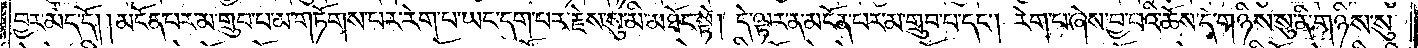བྱར་མེད་དོ། །མངོན་པར་མ་གྲུབ་པ་མ་གཏོགས་པར་རེག་པ་ཡང་དག་པར་རྗེས་སུ་མི་མཐོང་སྟེ། དེ་ལྟར་ན་མངོན་པར་མ་གྲུབ་པ་དང༌། རེག་པ་ཞེས་བྱ་བའི་ཆོས་དེ་གཉིས་སུ་ནི་གཉིས་སུ་
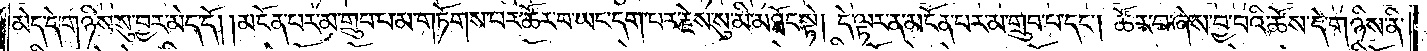མེད་དེ་གཉིས་སུ་བྱར་མེད་དོ། །མངོན་པར་མ་གྲུབ་པ་མ་གཏོགས་པར་ཚོར་བ་ཡང་དག་པར་རྗེས་སུ་མི་མཐོང་སྟེ། དེ་ལྟར་ན་མངོན་པར་མ་གྲུབ་པ་དང༌། ཚོར་བ་ཞེས་བྱ་བའི་ཆོས་དེ་གཉིས་ནི་
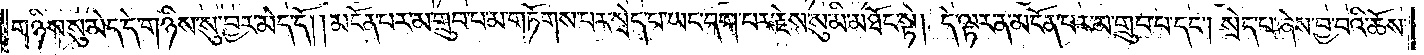གཉིས་སུ་མེད་དེ་གཉིས་སུ་བྱར་མེད་དོ། །མངོན་པར་མ་གྲུབ་པ་མ་གཏོགས་པར་སྲེད་པ་ཡང་དག་པར་རྗེས་སུ་མི་མཐོང་སྟེ། དེ་ལྟར་ན་མངོན་པར་མ་གྲུབ་པ་དང༌། སྲེད་པ་ཞེས་བྱ་བའི་ཆོས་
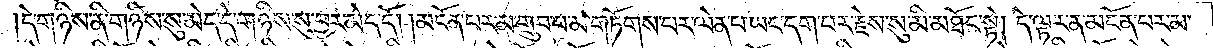དེ་གཉིས་ནི་གཉིས་སུ་མེད་དེ་གཉིས་སུ་བྱར་མེད་དོ། །མངོན་པར་མ་གྲུབ་པ་མ་གཏོགས་པར་ལེན་པ་ཡང་དག་པར་རྗེས་སུ་མི་མཐོང་སྟེ། དེ་ལྟར་ན་མངོན་པར་མ་
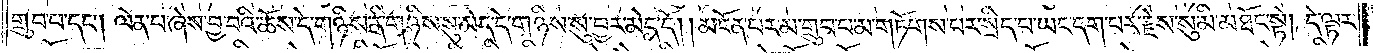གྲུབ་པ་དང༌། ལེན་པ་ཞེས་བྱ་བའི་ཆོས་དེ་གཉིས་ནི་གཉིས་སུ་མེད་དེ་གཉིས་སུ་བྱར་མེད་དོ། །མངོན་པར་མ་གྲུབ་པ་མ་གཏོགས་པར་སྲིད་པ་ཡང་དག་པར་རྗེས་སུ་མི་མཐོང་སྟེ། དེ་ལྟར་
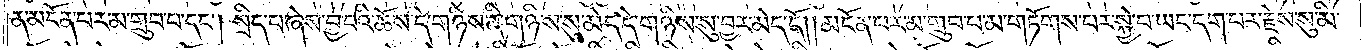ན་མངོན་པར་མ་གྲུབ་པ་དང༌། སྲིད་པ་ཞེས་བྱ་བའི་ཆོས་དེ་གཉིས་ནི་གཉིས་སུ་མེད་དེ་གཉིས་སུ་བྱར་མེད་དོ། མངོན་པར་མ་གྲུབ་པ་མ་གཏོགས་པར་སྐྱེ་བ་ཡང་དག་པར་རྗེས་སུ་མི་
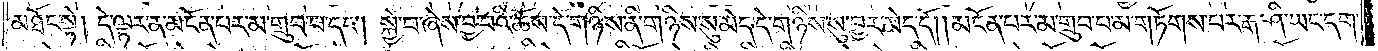མཐོང་སྟེ། དེ་ལྟར་ན་མངོན་པར་མ་གྲུབ་པ་དང༌། སྐྱེ་བ་ཞེས་བྱ་བའི་ཆོས་དེ་གཉིས་ནི་གཉིས་སུ་མེད་དེ་གཉིས་སུ་བྱར་མེད་དོ། །མངོན་པར་མ་གྲུབ་པ་མ་གཏོགས་པར་རྒ་ཤི་ཡང་དག་
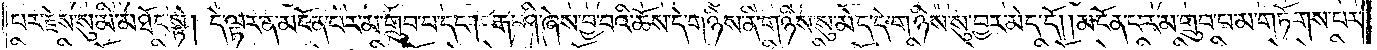པར་རྗེས་སུ་མི་མཐོང་སྟེ། དེ་ལྟར་ན་མངོན་པར་མ་གྲུབ་པ་དང༌། རྒ་ཤི་ཞེས་བྱ་བའི་ཆོས་དེ་གཉིས་ནི་གཉིས་སུ་མེད་དེ་གཉིས་སུ་བྱར་མེད་དོ། །མངོན་པར་མ་གྲུབ་པ་མ་གཏོགས་པར་
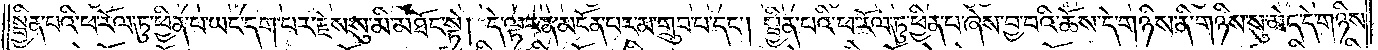སྦྱིན་པའི་ཕ་རོལ་ཏུ་ཕྱིན་པ་ཡང་དག་པར་རྗེས་སུ་མི་མཐོང་སྟེ། དེ་ལྟར་ན་མངོན་པར་མ་གྲུབ་པ་དང༌། སྦྱིན་པའི་ཕ་རོལ་ཏུ་ཕྱིན་པ་ཞེས་བྱ་བའི་ཆོས་དེ་གཉིས་ནི་གཉིས་སུ་མེད་དེ་གཉིས་
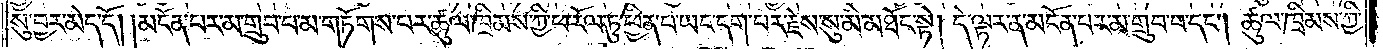སུ་བྱར་མེད་དོ། །མངོན་པར་མ་གྲུབ་པ་མ་གཏོགས་པར་ཚུལ་ཁྲིམས་ཀྱི་ཕ་རོལ་ཏུ་ཕྱིན་པ་ཡང་དག་པར་རྗེས་སུ་མི་མཐོང་སྟེ། དེ་ལྟར་ན་མངོན་པར་མ་གྲུབ་པ་དང༌། ཚུལ་ཁྲིམས་ཀྱི་
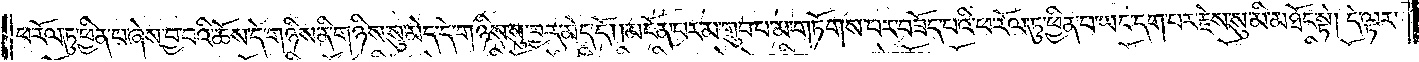ཕ་རོལ་ཏུ་ཕྱིན་པ་ཞེས་བྱ་བའི་ཆོས་དེ་གཉིས་ནི་གཉིས་སུ་མེད་དེ་གཉིས་སུ་བྱར་མེད་དོ། །མངོན་པར་མ་གྲུབ་པ་མ་གཏོགས་པར་བཟོད་པའི་ཕ་རོལ་ཏུ་ཕྱིན་པ་ཡང་དག་པར་རྗེས་སུ་མི་མཐོང་སྟེ། དེ་ལྟར་
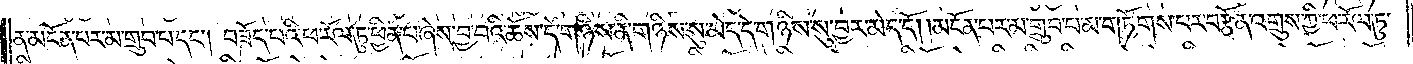ན་མངོན་པར་མ་གྲུབ་པ་དང༌། བཟོད་པའི་ཕ་རོལ་ཏུ་ཕྱིན་པ་ཞེས་བྱ་བའི་ཆོས་དེ་གཉིས་ནི་གཉིས་སུ་མེད་དེ་གཉིས་སུ་བྱར་མེད་དོ། །མངོན་པར་མ་གྲུབ་པ་མ་གཏོགས་པར་བརྩོན་འགྲུས་ཀྱི་ཕ་རོལ་ཏུ་
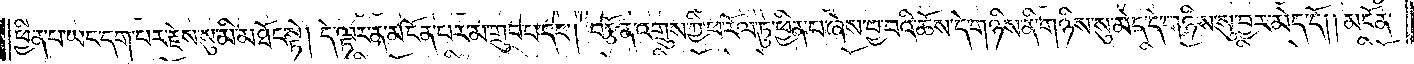ཕྱིན་པ་ཡང་དག་པར་རྗེས་སུ་མི་མཐོང་སྟེ། དེ་ལྟར་ན་མངོན་པར་མ་གྲུབ་པ་དང༌། བརྩོན་འགྲུས་ཀྱི་ཕ་རོལ་ཏུ་ཕྱིན་པ་ཞེས་བྱ་བའི་ཆོས་དེ་གཉིས་ནི་གཉིས་སུ་མེད་དེ་གཉིས་སུ་བྱར་མེད་དོ། །མངོན་
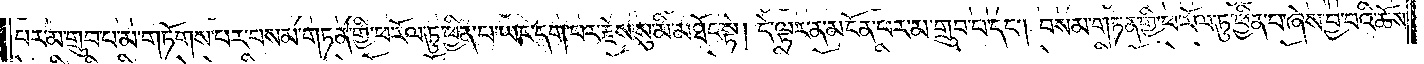པར་མ་གྲུབ་པ་མ་གཏོགས་པར་བསམ་གཏན་གྱི་ཕ་རོལ་ཏུ་ཕྱིན་པ་ཡང་དག་པར་རྗེས་སུ་མི་མཐོང་སྟེ། དེ་ལྟར་ན་མངོན་པར་མ་གྲུབ་པ་དང༌། བསམ་གཏན་གྱི་ཕ་རོལ་ཏུ་ཕྱིན་པ་ཞེས་བྱ་བའི་ཆོས་
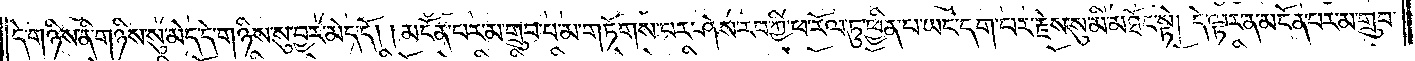དེ་གཉིས་ནི་གཉིས་སུ་མེད་དེ་གཉིས་སུ་བྱར་མེད་དོ། །མངོན་པར་མ་གྲུབ་པ་མ་གཏོགས་པར་ཤེས་རབ་ཀྱི་ཕ་རོལ་ཏུ་ཕྱིན་པ་ཡང་དག་པར་རྗེས་སུ་མི་མཐོང་སྟེ། དེ་ལྟར་ན་མངོན་པར་མ་གྲུབ་
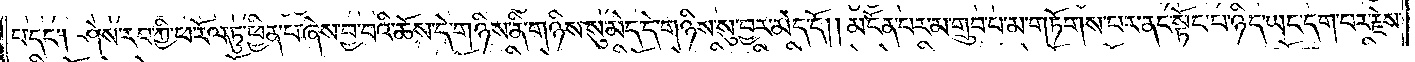པ་དང༌། ཤེས་རབ་ཀྱི་ཕ་རོལ་ཏུ་ཕྱིན་པ་ཞེས་བྱ་བའི་ཆོས་དེ་གཉིས་ནི་གཉིས་སུ་མེད་དེ་གཉིས་སུ་བྱར་མེད་དོ། །མངོན་པར་མ་གྲུབ་པ་མ་གཏོགས་པར་ནང་སྟོང་པ་ཉིད་ཡང་དག་པར་རྗེས་
